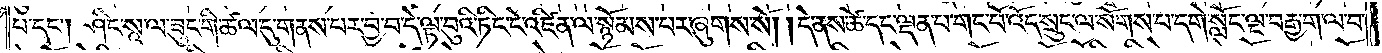པ་དང༌། ཤིང་སཱ་ལ་ཟུང་གི་ཚལ་དུ་གནས་པར་བྱ་བ་དེ་ལྟ་བུའི་ཏིང་ངེ་འཛིན་ལ་སྙོམས་པར་ཞུགས་སོ། །དེ་ནས་ཚེ་དང་ལྡན་པ་གང་པོ་འོད་སྲུང་ལ་སོགས་པ་དགེ་སློང་ལྔ་བརྒྱ་ག་ལ་བ་
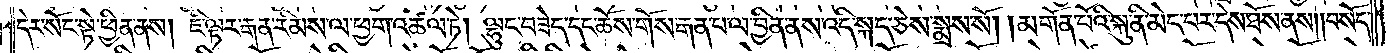དེར་སོང་སྟེ་ཕྱིན་ནས། ཇི་ལྟར་རྒན་རིམས་ལ་ཕྱག་འཚལ་ཏེ། ལྷུང་བཟེད་དང་ཆོས་གོས་རྒན་པ་ལ་བྱིན་ནས་འདི་སྐད་ཅེས་སྨྲས་སོ། །མགོན་པོའི་སྐུ་ནི་མེད་པར་དེས་ཐོས་ནས། །བསོད་
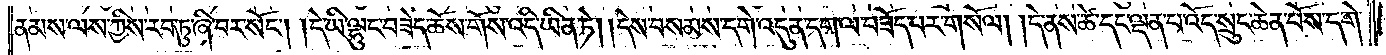ནམས་ལས་ཀྱིས་རབ་ཏུ་ཞི་བར་སོང༌། །དེ་ཡི་ལྷུང་བཟེད་ཆོས་གོས་འདི་ཡིན་ཏེ། །དེས་བསམས་དགེ་འདུན་དག་ལ་བཟོད་པར་གསོལ། །དེ་ནས་ཚེ་དང་ལྡན་པ་འོད་སྲུང་ཆེན་པོས་དགེ་
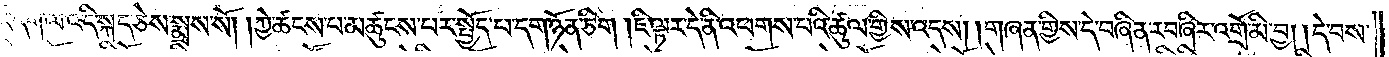སློང་དག་ལ་འདི་སྐད་ཅེས་སྨྲས་སོ། །ཀྱེ་ཚངས་པ་མཚུངས་པར་སྤྱོད་པ་དག་ཉོན་ཅིག །ཇི་ལྟར་དེ་ནི་འཕགས་པའི་ཚུལ་གྱིས་འདས། །གཞན་གྱིས་དེ་བཞིན་རབ་ཞིར་འགྲོ་མི་བྱ། །དེ་བས་
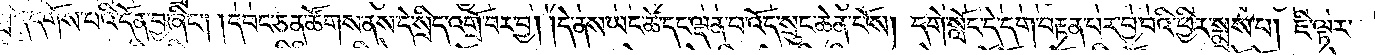ཇི་སྲིད་དགོས་པའི་དོན་བྱ་ཞིང༌། །དབང་ཅན་ཚོགས་ནས་དེ་སྲིད་འགྲོ་བར་བྱ། །དེ་ནས་ཡང་ཚེ་དང་ལྡན་པ་འོད་སྲུང་ཆེན་པོས། དགེ་སློང་དེ་དག་བརྟན་པར་བྱ་བའི་ཕྱིར་སྨྲས་པ། ཇི་ལྟར་
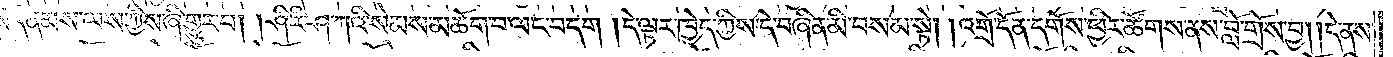བསོད་ནམས་ལས་ཀྱིས་ཞི་གྱུར་པ། །ཤི་རི་ཤ་ཀའི་སེམས་མཆོག་བ་ལང་བདག །དེ་ལྟར་ཁྱེད་ཀྱིས་དེ་བཞིན་མི་བསམ་སྟེ། །འགྲོ་དོན་དགོས་ཕྱིར་ཚོགས་ནས་བློ་གྲོས་བྱ། །དེ་ནས་
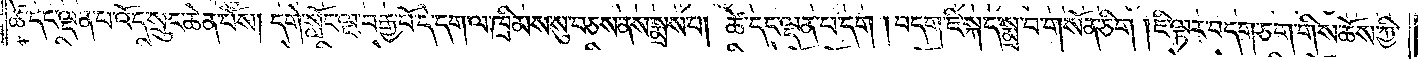ཚེ་དང་ལྡན་པ་འོད་སྲུང་ཆེན་པོས། དགེ་སློང་ལྔ་བརྒྱ་པོ་དེ་དག་ལ་ཁྲིམས་སུ་བཅས་ནས་སྨྲས་པ། ཚེ་དང་ལྡན་པ་དག །བདག་ཇི་སྐད་སྨྲ་བ་གསོན་ཅིག །ཇི་ལྟར་བདག་ཅག་གིས་ཆོས་ཀྱི་
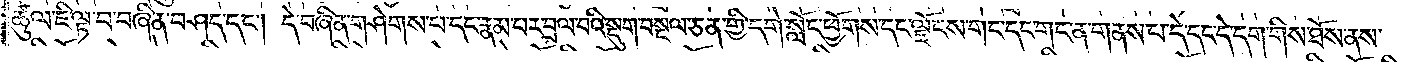ཚུལ་ཇི་ལྟ་བ་བཞིན་བཤད་དང༌། དེ་བཞིན་གཤེགས་པ་དང་རྣམ་པར་བྲལ་བའི་སྡུག་བསྔལ་ཅན་གྱི་དགེ་སློང་ཕྱོགས་དང་ལྗོངས་གང་དང་གང་ན་གནས་པ་དེ་དང་དེ་དག་གིས་ཐོས་ནས་
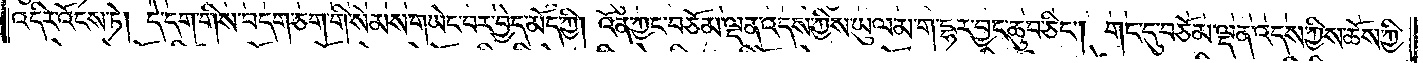འདིར་འོངས་ཏེ། དེ་དག་གིས་བདག་ཅག་གི་སེམས་གཡེང་བར་བྱེད་མོད་ཀྱི། འོན་ཀྱང་བཅོམ་ལྡན་འདས་ཀྱིས་ཡུལ་མ་ག་དྷར་བྱང་ཆུབ་ཅིང༌། གང་དུ་བཅོམ་ལྡན་འདས་ཀྱིས་ཆོས་ཀྱི་
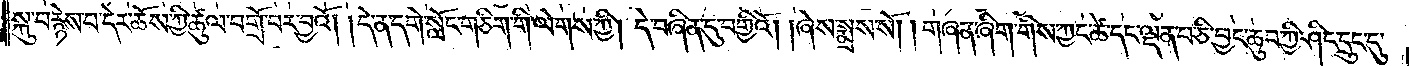སྐུ་བརྙེས་པ་དེར་ཆོས་ཀྱི་ཚུལ་བགྲོ་བར་བྱའོ། །དེ་ན་དགེ་སློང་གཅིག་གི་ལེགས་ཀྱི། དེ་བཞིན་དུ་བགྱིའོ། །ཞེས་སྨྲས་སོ། །གཞན་ཞིག་གིས་ཀྱང་ཚེ་དང་ལྡན་པ་ཅི་བྱང་ཆུབ་ཀྱི་ཤིང་དྲུང་དུ་
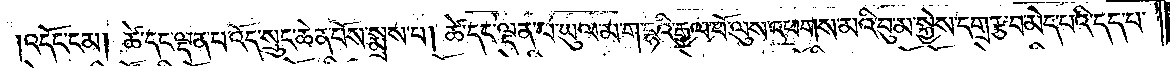།འདོང་ངམ། ཚེ་དང་ལྡན་པ་འོད་སྲུང་ཆེན་པོས་སྨྲས་པ། ཚེ་དང་ལྡན་པ་ཡུལ་མ་ག་དྷའི་རྒྱལ་པོ་ལུས་འཕགས་མའི་བུ་མ་སྐྱེས་དགྲ་རྩ་བ་མེད་པའི་དད་པ་
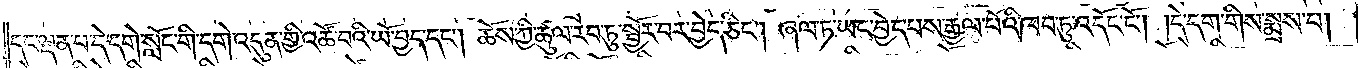དང་ལྡན་པ་དེ་དགེ་སློང་གི་དགེ་འདུན་གྱི་འཚོ་བའི་ཡོ་བྱད་དང༌། ཆོས་ཀྱི་ཚུལ་རབ་ཏུ་སྦྱོར་བར་བྱེད་ཅིང༌། ཞལ་ཏ་ཡང་བྱེད་པས་རྒྱལ་པོའི་ཁབ་ཏུ་འདོང་ངོ༌། །དེ་དག་གིས་སྨྲས་པ།
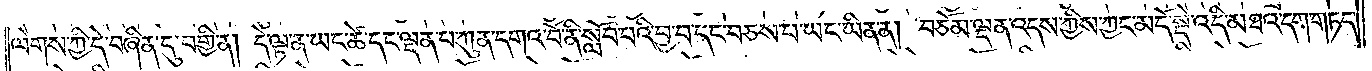ལེགས་ཀྱི་དེ་བཞིན་དུ་བགྱི་ན། དེ་ལྟ་ན་ཡང་ཚེ་དང་ལྡན་པ་ཀུན་དགའ་བོ་ནི་སློབ་པའི་བྱ་བ་དང་བཅས་པ་ཡང་ཡིན་ན། བཅོམ་ལྡན་འདས་ཀྱིས་ཀྱང་མདོ་སྡེ་འདི་མཐའ་དག་གཏད་
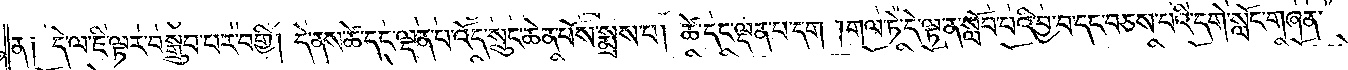ན༑ དེ་ལ་ཇི་ལྟར་བསྒྲུབ་པར་བགྱི། དེ་ནས་ཚེ་དང་ལྡན་པ་འོད་སྲུང་ཆེན་པོས་སྨྲས་པ། ཚེ་དང་ལྡན་པ་དག །གལ་ཏེ་དེ་ལྟ་ན་སློབ་པའི་བྱ་བ་དང་བཅས་པའི་དགེ་སློང་གཞན་
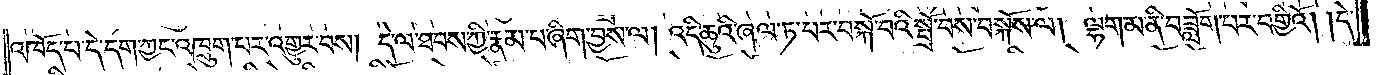འཁོད་པ་དེ་དག་ཀྱང་འཁྲུག་པར་འགྱུར་པས། དེ་ལ་ཐབས་ཀྱི་རྣམ་པ་ཞིག་བྱས་ལ། འདི་ཆུའི་ཞལ་ཏ་པར་བསྐོ་བའི་སྤྲོ་བས་བསྐོས་ལ། ལྷག་མ་ནི་བཟློག་པར་བགྱིའོ། །དེ་
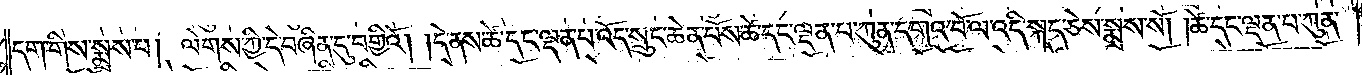དག་གིས་སྨྲས་པ། ལེགས་ཀྱི་དེ་བཞིན་དུ་བགྱིའོ། །དེ་ནས་ཚེ་དང་ལྡན་པ་འོད་སྲུང་ཆེན་པོས་ཚེ་དང་ལྡན་པ་ཀུན་དགའ་བོ་ལ་འདི་སྐད་ཅེས་སྨྲས་སོ། །ཚེ་དང་ལྡན་པ་ཀུན་
